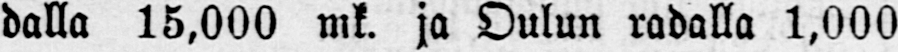dalla 15,000 mk. ja Oulun radalla 1,000
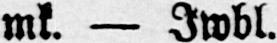mk. — Jwbl.
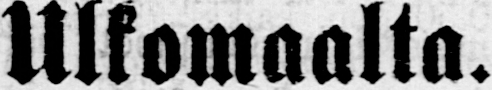Ulkomaalta.
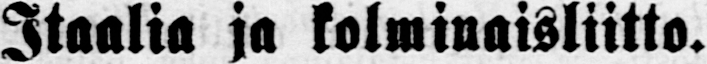Itaalia ja kolminaisliitto.
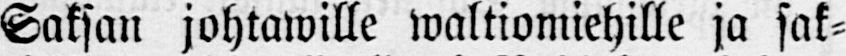Saksan johtawille waltiomiehille ja sak-
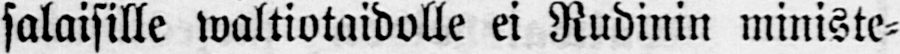salaisille waltiotaidolle ei Rudinin ministe-
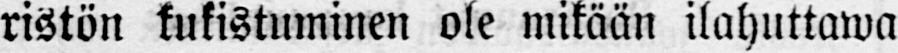ristön kukistuminen ole mikään ilahuttawa
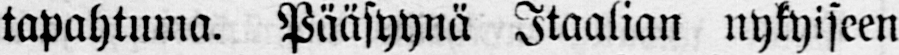tapahtuma. Pääsyynä Itaalian nykyiseen
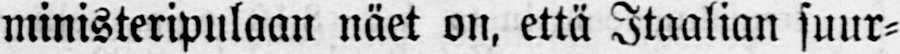ministeripulaan näet on, että Itaalian suur-
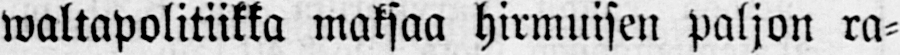waltapolitiikka maksaa hirmuisen paljon ra-
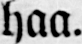haa.
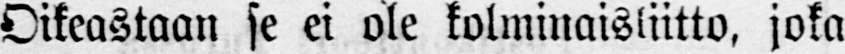Oikeastaan se ei ole kolminaisliitto, joka
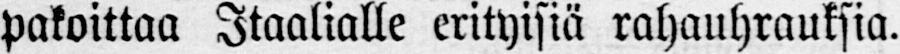pakoittaa Itaalialle erityisiä rahauhrauksia.
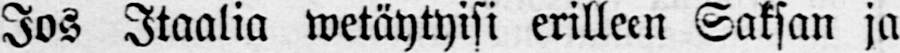Jos Itaalia wetäytyisi erilleen Saksan ja
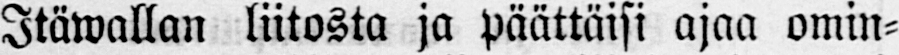Itäwallan liitosta ja päättäisi ajaa omin-
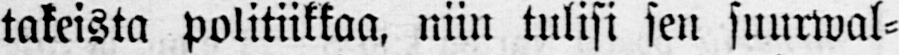takeista politiikkaa, niin tulisi sen suurwal-
